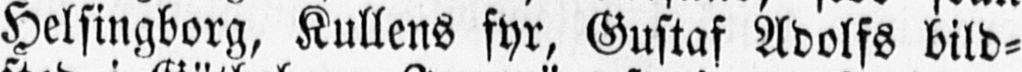Helsingborg, Kullens fyr, Gustaf Adolfs bild-
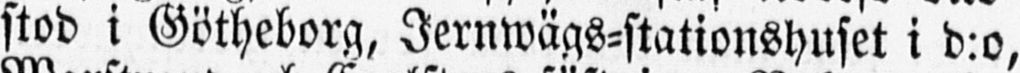stod i Götheborg, Jernwägs-stationshuset i d:o,
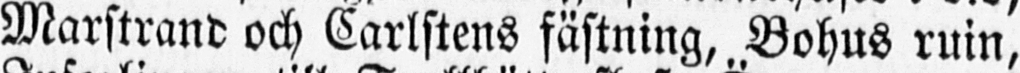Marstrand och Carlstens fästning, Bohus ruin,
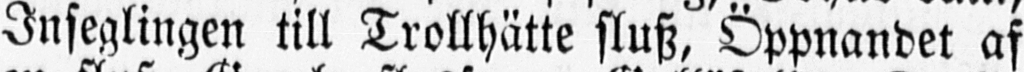Inseglingen till Trollhätte slusz, Öppnandet af
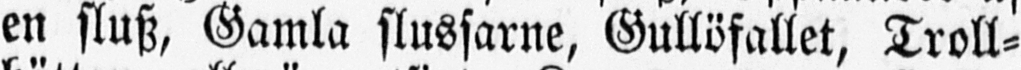en slusz, Gamla slussarne, Gullöfallet, Troll-
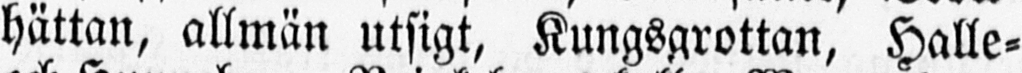hättan, allmän utsigt, Kungsgrottan, Halle-
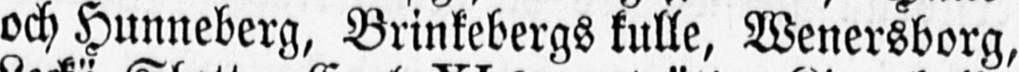och Hunneberg, Brinkebergs kulle, Wenersborg,
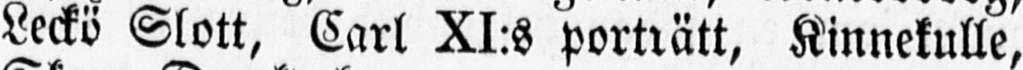Leckö Slott, Carl XI:s porträtt, Kinnekulle,
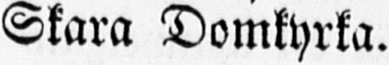Skara Domkyrka.
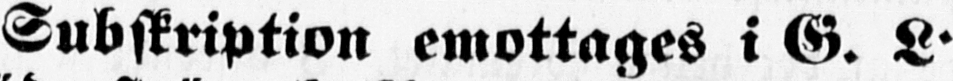Subskription emottages i G. L.
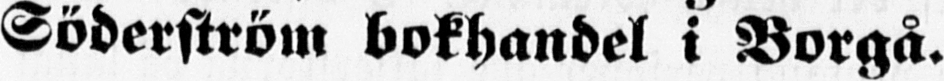Söderström bokhandel i Borgå.
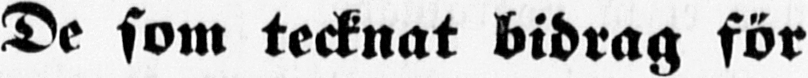De som tecknat bidrag för
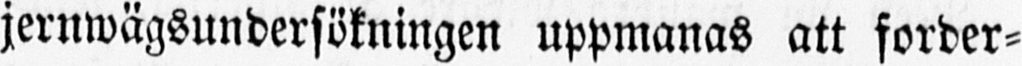jernwägsundersökningen uppmanas att forder-
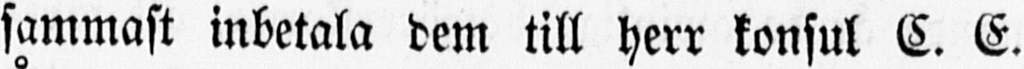sammast inbetala dem till herr konsul C. E.
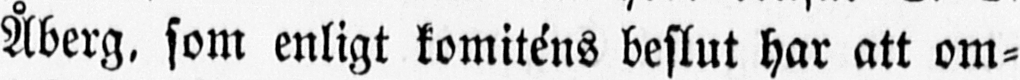Åberg, som enligt komiténs beslut har att om-
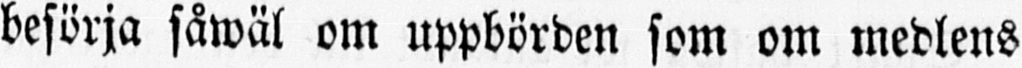besörja såwäl om uppbörden som om medlens
